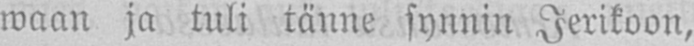waan ja tuli tänne synnin Jerikoon,
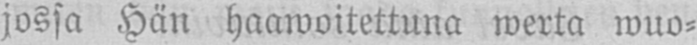jossa Hän haawoitettuna werta wuo-
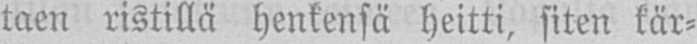taen ristillä henkensä heitti, siten kär-
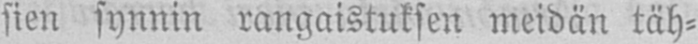sien synnin rangaistuksen meidän täh-
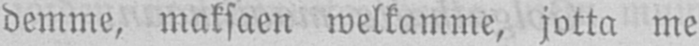demme, maksaen welkamme, jotta me
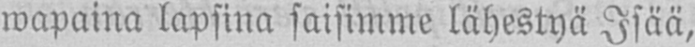wapaina lapsina saisimme lähestyä Isää,
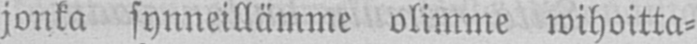jonka synneillämme olimme wihoitta-
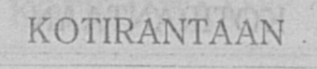KOTIRANTAAN
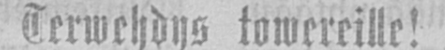Terwehdys towereille!
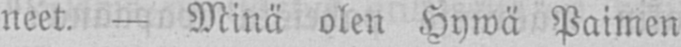neet. — Minä olen Hywä Paimen
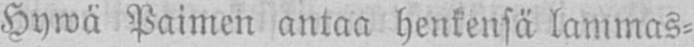Hywä Paimen antaa henkensä lammas-
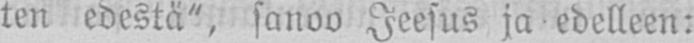ten edestä", sanoo Jeesus ja edelleen:
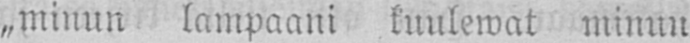„minun lampaani kuulewat minun
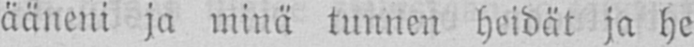ääneni ja minä tunnen heidät ja he
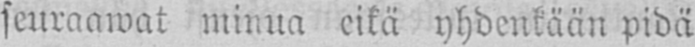seuraawat minua eikä yhdenkään pidä
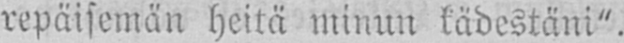repäisemän heitä minun kädestäni".
